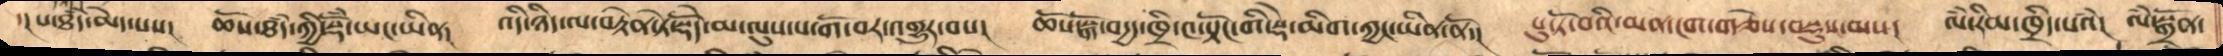་།པ་ཐཾད་མེད་པས། ཆོས་ཐཾད་ཀྱི་སྡོཾ་ཡང་ཡིན། འདི་ཉིད་ལ་བརྟེན་ཏེ་སྡེོད་མ་ལུས་པ་གོ་བར་འགྱུར་བས། ཆོས་སྒོ་བདྱད་ཁྲི་༤་སྟོང་གི་སྡེ་མིག་ཀྱང་ཡིན་ནོ་། པུ་ཏོ་བའི་མན་ངག་གཅེས་བསྡུས་ལས། ལཾ་རིམ་ཁྲིད་པའཾ། ལཾ་སྒྲོན་
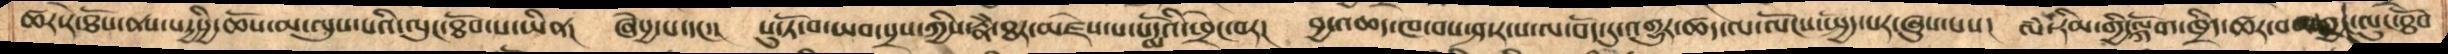ཚར་རེ་ཐོས་ནས་སདྱསྱི་ཆོས་མ་ལུས་པའི་ལུང་ཐོབ་པ་ཡིན། ཞེཔྱ་པ་དང་། པུ་ཏོ་བ་ཡབ་སྲས་ཀྱིས་རྣཾ་ཐར་མཛེས་པ་པདྨོའི་ཕྲེང་བར། བྱ་འཆད་ཁ་བས་ཤ་ར་པ་ལ་བོད་དུ་འགྱུར་ཚད་ལ་་ལོངས་སྤྱོད་པར་ཞུས་པས། ལཾ་རིམ་གྱི་ལྐོག་ཁྲིད་ཚར་བས་ཀྱང་ལུང་ཐོེབ་
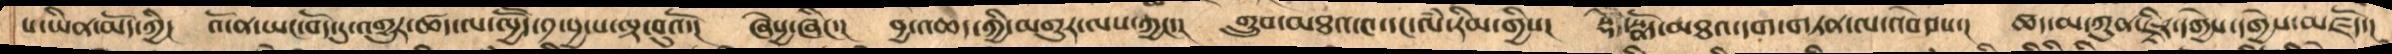པ་ཡིན་མོད་ཀྱི། འོ་ན་ཡང་བོད་དུ་འགྱུར་ཚད་ལ་ལྱཽད་༡་བྱ་པ་ལྟ་བུའོ། ཞེསྱ་ཞིང་། བྱ་འཆད་ཀྱི་མགུར་ལས་ཀྱང་། གྲུབ་མཐའ་༤་དང་ལཾ་རིམ་གྱིས། སྡེ་སྣོད་མཐའ་དག་གཏན་ལ་འབེབས་། ཚད་མ་ཀུན་ཇྟིར་དགྱེས་དགྱེས་མཛོད་།
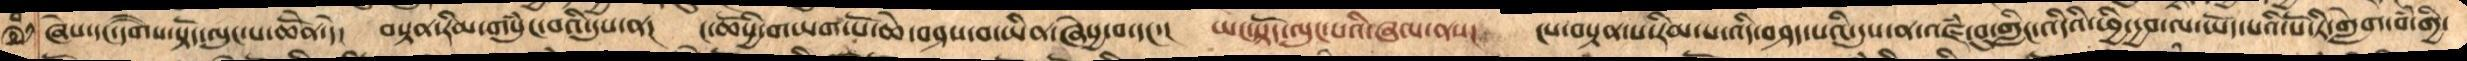ཞེས་དང་དགཻས་སྟོད་ལུང་པ་ཆེནོ་དེ། བསྟན་རིམ་གསུཾ་བའི་དུས་ན། ང་ཆོསྱི་གཡག་པོ་ཆེ་བཤས་བ་ཡིན་ཞེསྱ་བ་དང་། །ཡང་སྟོད་ལུང་པའི་ཞལ་ནས།  ངས་བསྟན་པའི་རིམ་པ་འདི་བཤད་པའི་དུས་ན་འཛཾ་བུ་གླིང་འདིའི་ཕྱི་དྱབ་ལ་ཡོད་པའི་པོ་ཏི་དང་གླེག་བཾ་གྱི་
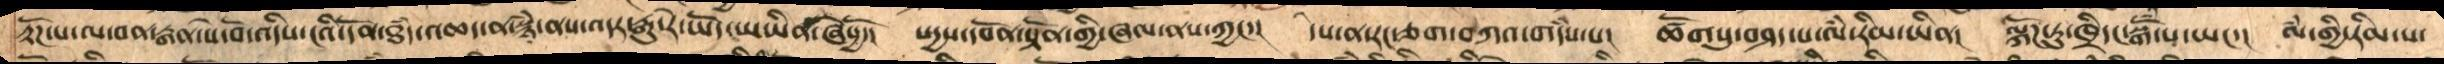རྟོཌ་པ་ལ་བན་རྒན་སེ་བོ་འདིས་ངའི་དོན་ཐཾད་འཆད་ན་སྙཾ་ནས་འདར་རྒུ་རེ་ཡོད་ཡཡིན་ཞེསྱོ་། སདྱས་དབོན་སྟོན་གྱི་ཞལ་ནས་ཀྱང་། དེས་ན་རང་ཅག་བཀའ་གདཾས་པ། ཚོགསུ་བཤད་པ་ལཾ་རིམ་ཡིན། ལྐོཌ་ཏུ་ཁྲིད་དང་སྒོཾ་པ་ཡང་། ལཾ་གྱི་རིམ་པ་
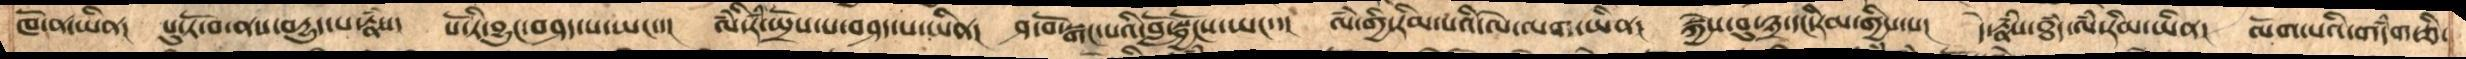ཁོ་ན་ཡིན། པུ་ཏོ་བ་ནས་བདྱུད་པ་རྣཾས་ པོ་ཏི་བྱུང་བཤདཔ་ཡང་། ལཾ་རིམ་སྤྲོས་པ་བཤད་པ་ཡིན། ཤ་བོ་སྒང་པའི་བློ་སྦྱོངས་ཡང་། ལཾ་གྱི་རིམ་པའི་ལེ་ལག་ཡིན། སྐྱེས་བུ་༣་དང་རིམ་གྱིས་པ། དེ་རྣཾས་ཐཾད་་ལཾ་རིམ་ཡིན། ལོག་པའི་གདཾག་ཅི་
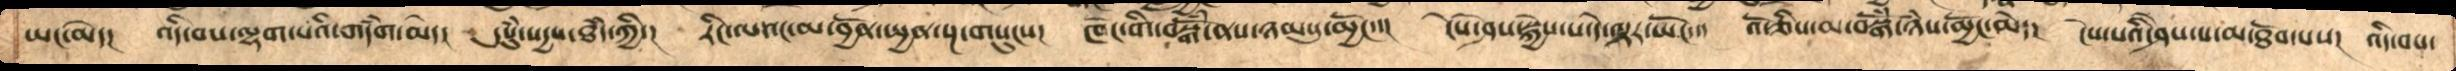ཡང་མེད། འདི་བས་ལྷག་པའི་གདཾག་མེད། དུསུཾ་སདྱས་ཐཾད་ཀྱི་། རིང་ལའང་མ་བྱོན་སྤྱན་སྔ་གསུངས། ཁོང་གི་བསྒོཾ་ནས་ཉམསུ་མྱོང་་། ངེས་ཤེས་སྐྱེས་པ་དེ་ལྟར་ཡོང་་། འོ་ཅིས་མ་བསྒོཾ་ཉཾས་མྱོང་མེད། ངེས་པའི་ཤེས་པ་མ་ཐོབ་པས། འདི་བས་
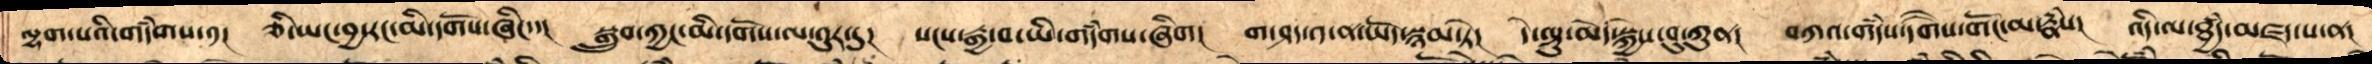ལྷག་པའི་གདཾགས་༡།  ཅི་ཡང་བྱ་རང་མི་དགོས་ཞིང་། སྒྲུབ་ཀྱང་མི་དགོས་ལ་འུར་དུ། སངས་རྒྱ་བ་ཡི་གདཾགས་ཞིག། ག་ཤད་༡་ན་ཡོད་སྙམ་ཏེ། དེ་ལྟུ་མོ་སྐྱེས་བུ་ཀུན། བཀའ་གདཾས་དགཻས་གོང་མ་རྣཾས། འདི་ལ་ཐྱཾད་མཛད་པ་ན།
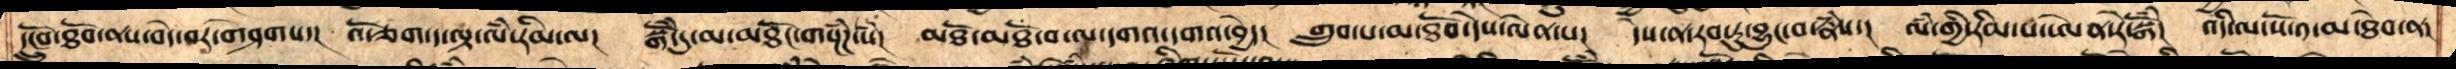དངྲོུབ་ཐོབ་ནས་བདེ་བར་གཤེགས། འོ་ཅག་ད་ལྟ་ལཾ་རིམ་ལ། སྒོཾ་དུ་མ་མཐོང་གསྔཾཌ་སཾ། མཐོ་མཐོ་བ་ལ་དགའ་དགའ་བྱེད། གྲུབ་པ་མ་ཐོབ་དེས་ལེན་པ། དེས་ན་རབ་ཏུ་བྱུང་བ་རྣཾས། ལཾ་གྱི་རིམ་པ་ཨེན་རེ་སྒོཾས། འདི་ལ་སོ་༡་མ་ཐེབ་ན།
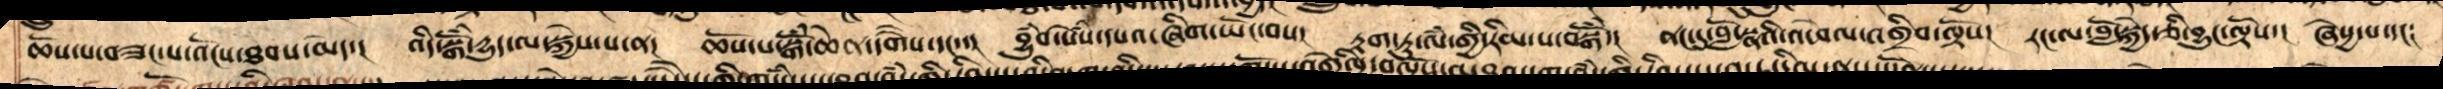ཆོས་པ་བཟང་པ་འོངས་ཐབས་མེད། འདི་སྒོཾ་དྱུད་ལ་སྐྱེས་པ་ན། ཆོས་པ་སྒོཾ་ཆེན་དགཻས་དང་་། བྱུཾབ་་སེཾས་དཔའ་ཞིག་ཡོང་བས། རྟག་ཏུ་ལཾ་གྱི་རིམ་པ་བསྒོཾ། ནང་དུ་བློ་སྣའི་འཕེལ་འགྲིབ་ལྟོས། རང་ལ་བློ་སྐྱེད་ཅི་བྱུང་ལྟོས། ཞེསྱ་པ་དང༴
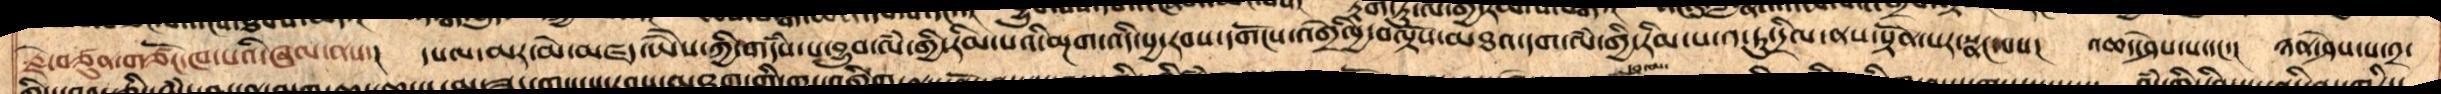རྗེ་བཙུན་གཙོང་ཁ་པའི་ཞལ་ནས། དཔལ་མར་མེ་མཛད་ཡཻས་ཀྱི་གདཾས་པ་བྱུབ་ལཾ་གྱི་རིམ་པའི་མྔག་འདི་སྱ་རབས་དགོངས་འགྲེལྱི་བལྟོས་མཐའ་དག་ལཾ་གྱི་རིམ་པ་༡་ཏུ་དྲིལ་ནས་སྟོན་པར་སྣང་བས།  འཆད་ཤེས་པ་དང་།  ཉན་ཤེས་པ་༢་
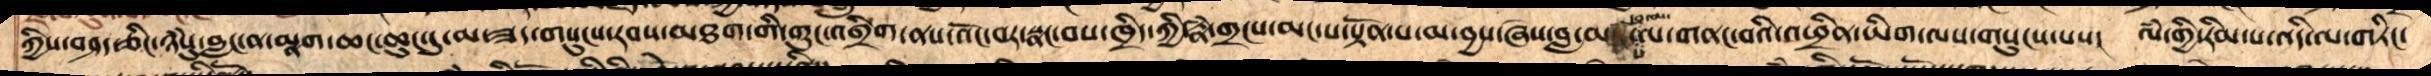ཀྱིས་བཤད་ཅིང་ཉྃསུ་བླང་ན་མྣག་ཆང་ཆུང་དུ་མ་ཟད་གསུངས་རབས་མཐག་གི་གུང་འགྲིག་ནས་འོང་བར་སྣང་བས་ཁྲིད་ཀྱི་རྣྃ་གྲངས་མང་པ་སྟོན་པ་མ་བྱས་ཞེས་བླ་མ་ལ་གནང་བའི་འཕྲིན་ཡིག་ལས་གསུངས་པས། ལྃ་གྱི་རིམ་པ་འདི་ལ་གཏིང་
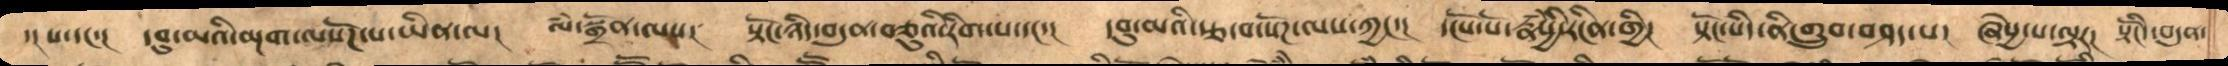་།པ་དང་། དབུ་མའི་མྔག་ལསོཌ་ཡིན་ལ། ལཾ་སྒྲོན་ལས། སྟོང་ཉིད་བདུན་བཅུའི་རིག་པ་དང་། དབུ་མའི་རྩ་བ་སོཌ་ལས་ཀྱང་། དངོས་པོ་རྣཾསྱི་རངིན་གྱི། སྟོང་པིད་ནི་གྲུབ་བཤད་པ། ཞེསྱ་པ་ལྟར། སྟོངདི་བདུན་
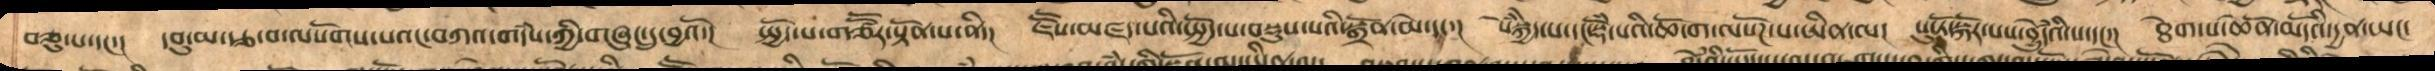བཅུ་པ་དང་། དབུ་མ་རྩ་བ་ལ་སོགས་པའང་བཀའ་གདཾས་ཀྱི་གཞུང་དུ་བྱའོ། སྤྱོད་པ་གཙཽར་སྟོན་པ་ནི། ཇཽས་མཛད་པའི་་སྤྱོད་པ་བསྡུས་པའི་སྒྲོན་མེ་དང་།། སེཾསྐྱེད་པ་དང་སྡོྃ་པའི་ཆོ་ག་ལསོཌ་པ་ཡིན་ལ། པུ་ཏོ་སྐོར་པས་བྱེུདྃའི་ས་དང་། ཐེག་པ་ཆེནོ་མདོེའི་དྱན་ཡང་
